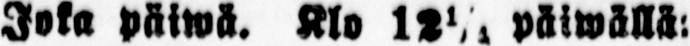Joka päiwä. Klo 12½ päiwällä:
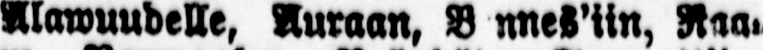Alawuudelle, Auraan, B nnes'iin, Raa-
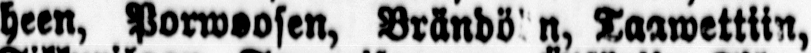heen, Porwoosen, Brändö n, Taawettiin,
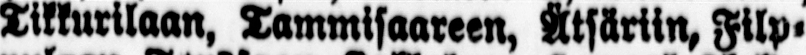Tikkurilaan, Tammisaareen, Ätsäriin, Filp-
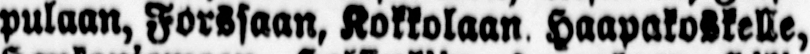pulaan, Forssaan, Kokkolaan Haapakoskelle,
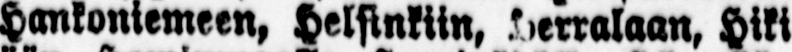Hankoniemeen, Helsinkiin, Herralaan, Hiki-
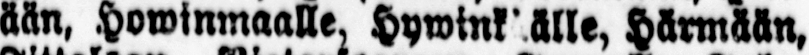ään, Howinmaalle, Hywinkäälle, Härmään,
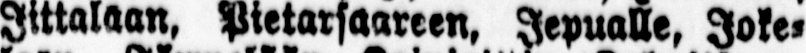Iittalaan, Pietarsaareen, Jepualle, Joke-
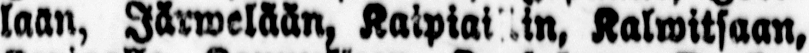laan, Järwelään, Kaipiai in, Kalwitsaan,
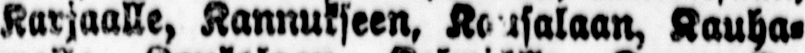Karjaalle, Kannukseen, Kausalaan, Kauha-
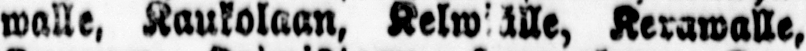walle, Kaukolaan, Kelwiälle, Kerawalle,
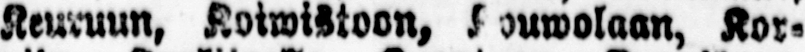Keuruun, Koiwistoon, Kouwolaan, Kor-
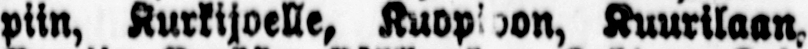piin, Kurkijoelle, Kuopioon, Kuurilaan,
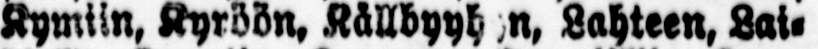Kymiin, Kyröön, Källbyyhyn, Lahteen, Lai-
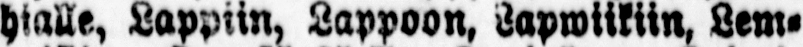hialle, Lappiin, Lappoon, Lapwiikiin, Lem-
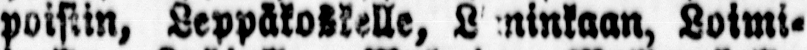poisiin, Leppäkoskelle, L ninkaan, Loimi-
